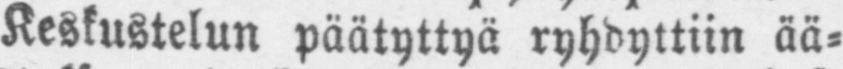Keskustelun päätyttyä ryhdyttiin ää-
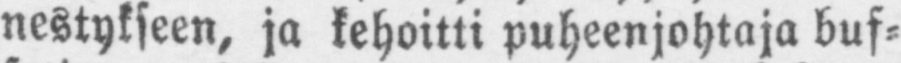nestykseen, ja kehoitti puheenjohtaja buf-
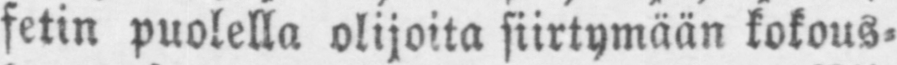fetin puolella olijoita siirtymään kokous-
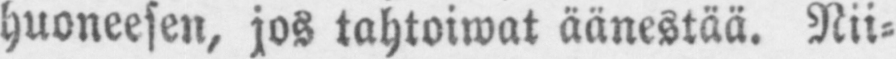huoneesen, jos tahtoiwat äänestää. Nii-
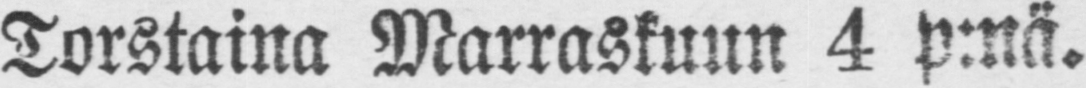Torstaina Marraskuun 4 p:nä.
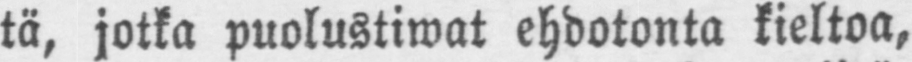tä, jotka puolustiwat ehdotonta kieltoa,
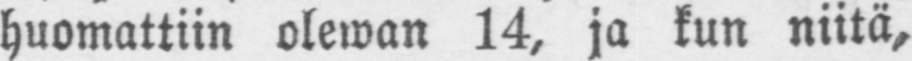huomattiin olewan 14, ja kun niitä,
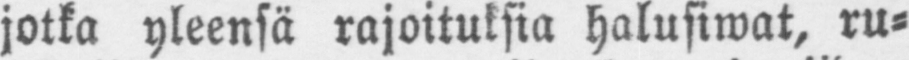jotka yleensä rajoituksia halusiwat, ru-
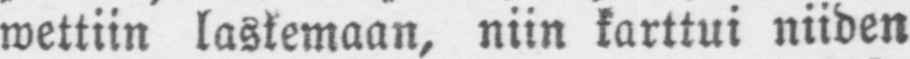wettiin laskemaan, niin karttui niiden
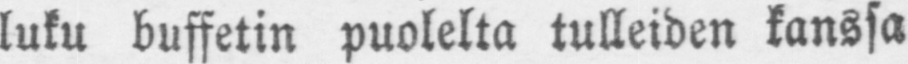luku buffetin puolelta tulleiden kanssa
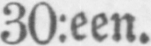30:een.
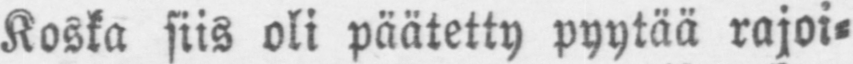Koska siis oli päätetty pyytää rajoi-
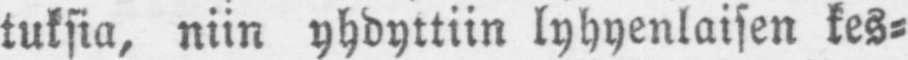tuksia, niin yhdyttiin lyhyenlaisen kes-
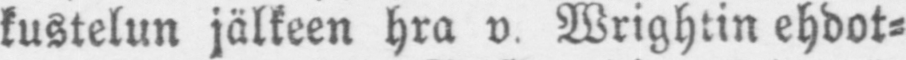kustelun jälkeen hra v. Wrightin ehdot-
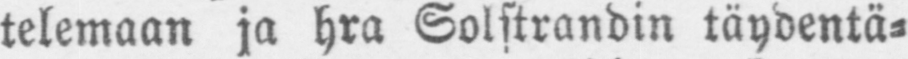telemaan ja hra Solstrandin täydentä-
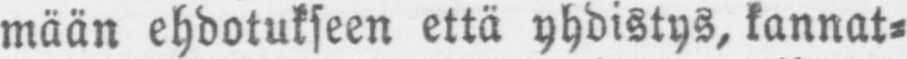mään ehdotukseen että yhdistys, kannat-
